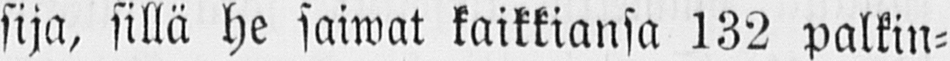sija, sillä he soiwat kaikkiansa 132 palkin-
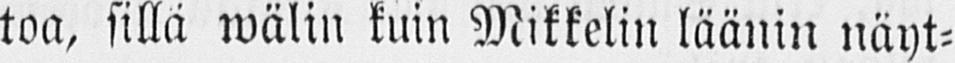toa, sillä wälin kuin Mikkelin läänin näyt-
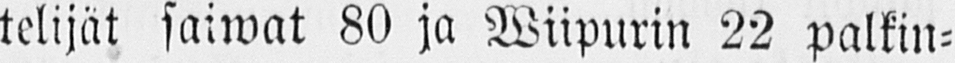telijät soiwat 80 ja Wiipurin 22 palkin-
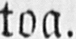toa.
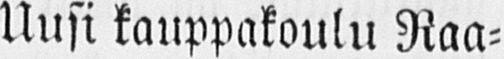Uusi kauppakoulu Raa-
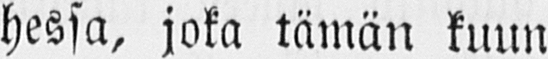hessa, joka tämän kuun
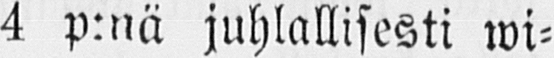4 p:nä juhlallisesti wi-
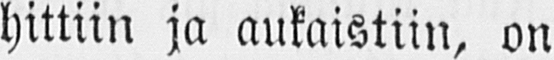hittiin ja aukaistiin, on
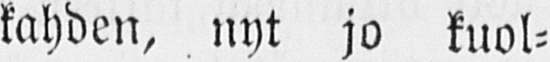kahden, nyt jo kuol-
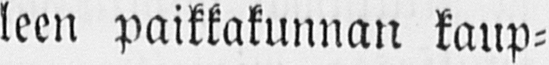leen paikkakunnan kaup-
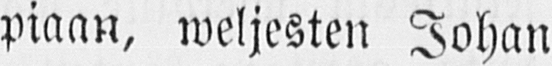piaan, weljesten Johan
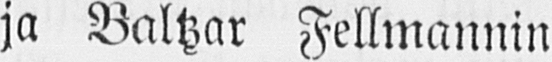ja Baltzar Fellmannin
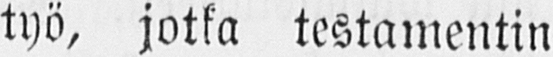työ, jotka testamentin
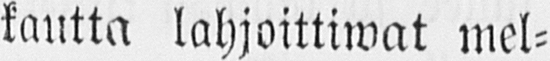kautta lahjoittiwat mel-
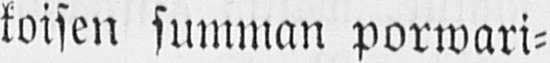koisen summan porwari-
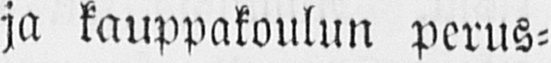ja kauppakoulun perus-
